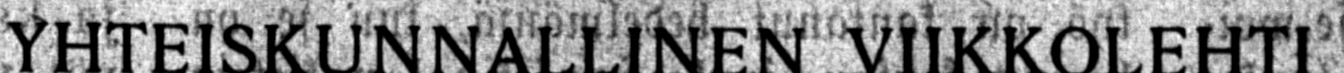YHTEISKUNNALLINEN VIIKKOLEHTI
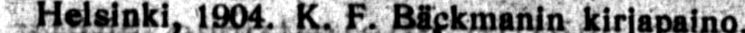Helsinki, 1904. K. F. Bäckmanin kirjapaino
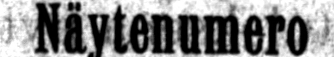Näytenumero
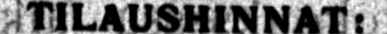TILAUSHINNAT:
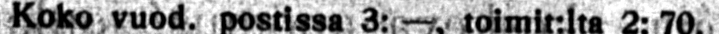Koko vuod. postissa 3: —, toimit:lta 2: 70.
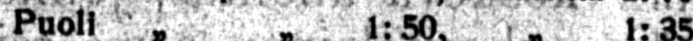Puoli „ „ 1: 50, „ 1: 35.
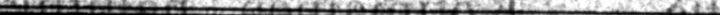Kuukaudelta „ —: 28, „ —: 25.
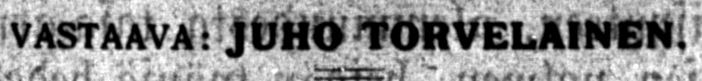VASTAAVA: JUHO TORVELAINEN.
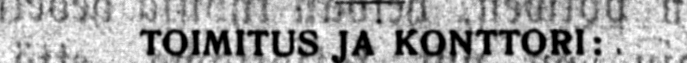TOIMITUS JA KONTTORI:
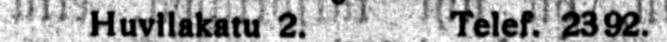Huvilakatu 2. Telef. 2392.
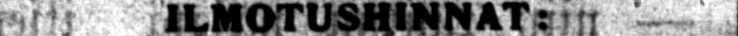ILMOTUSHINNAT:
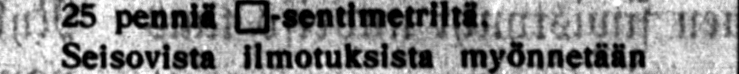25 penniä □-sentimetriltä.
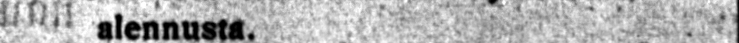Seisovista ilmotuksista myönnetään
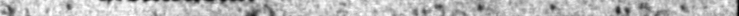alennusta.
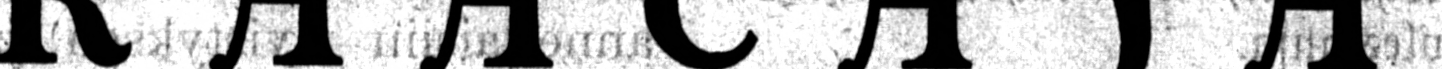RAATAJA
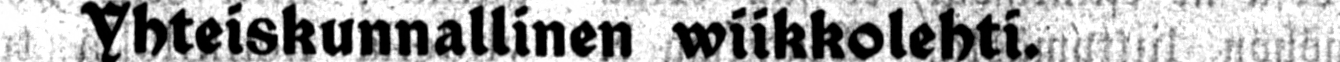Yhteiskunnallinen wiikkolehti.
